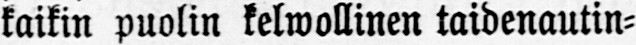kaikin puolin kelwollinen taidenautin-
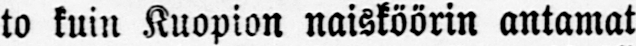to kuin Kuopion naisköörin antamat
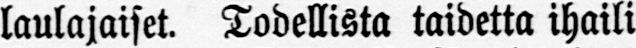laulajaiset. Todellista taidetta ihaili
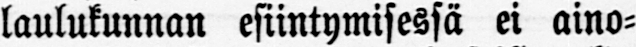laulukunnan esiintymisessä ei aino-
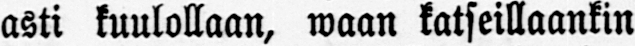asti kuulollaan, waan katseillaankin
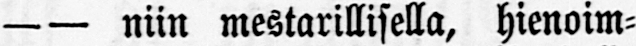— — niin mestarillisella, hienoim-
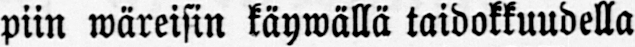piin wäreisin käywällä taidokkuudella
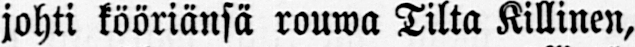johti kööriänsä rouwa Tilta Killinen,
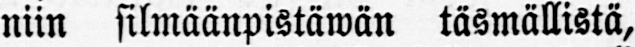niin silmäänpistäwän täsmällistä,
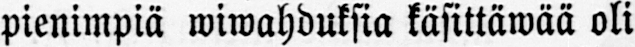pienimpiä wiwahduksia käsittäwää oli
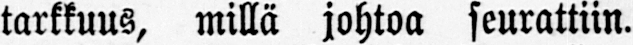tarkkuus, millä johtoa seurattiin.
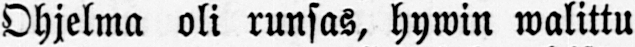Ohjelma oli runsas, hywin walittu
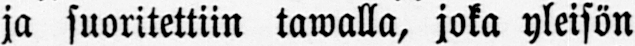ja suoritettiin tawalla, joka yleisön
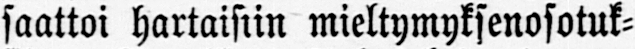saattoi hartaisiin mieltymyksenosotuk-
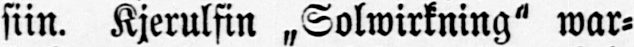siin. Kjerulsin „Solwirkning" war-
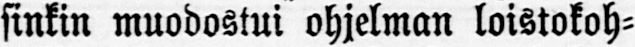sinkin muodostui ohjelman loistokoh-
